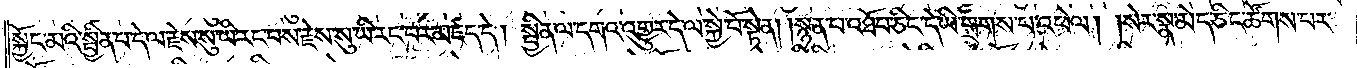སྐྱོང་མའི་སྦྱིན་པ་དེ་ལ་རྗེས་སུ་ཡི་རང་བས་རྗེས་སུ་ཡི་རང་བར་མཛད་དེ། སྦྱིན་ལ་དགའ་འགྱུར་དེ་ལ་སྐྱེ་བོ་སྟེན། །སྙན་པ་འཐོབ་ཅིང་དེ་ཡི་གྲགས་པ་འཕེལ། །སེར་སྣ་མེད་ཅིང་ཚོགས་པར་
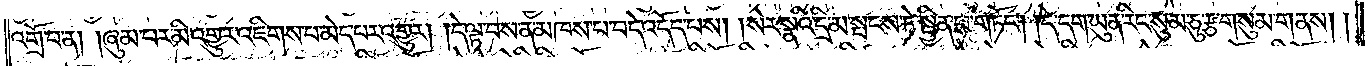འགྲོ་བ་ན། །ཞུམ་པར་མི་འགྱུར་འཇིགས་པ་མེད་པར་འགྱུར། །དེ་ལྟ་བས་ན་མཁས་པ་བདེ་འདོད་པས། །སེར་སྣའི་དྲི་མ་སྤངས་ཏེ་སྦྱིན་པ་གཏོང༌། །དེ་དག་ཡུན་རིང་སུམ་ཅུ་རྩ་གསུམ་གནས། །
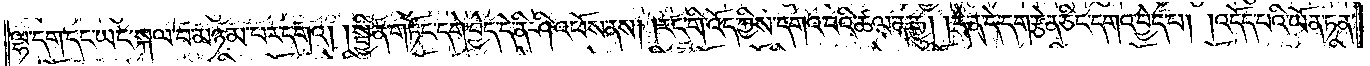ལྷ་དག་དང་ཡང་སྐལ་བ་མཉམ་པར་དགའ། །སྦྱིན་གཏོང་དགེ་བྱེད་དེ་ནི་ཤི་འཕོས་ནས། །རང་གི་འོད་ཀྱིས་དགའ་བའི་ཚལ་ན་རྒྱུ། །དེ་ན་དེ་དག་རྩེན་ཅིང་དགའ་བྱེད་པ། །འདོད་པའི་ཡོན་ཏན་
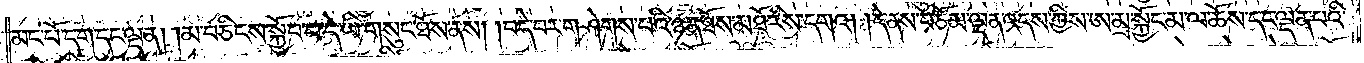མང་པོ་དག་དང་ལྡན། །མ་བཅིངས་སྐྱོབ་པ་དེ་ཡི་གསུང་ཐོས་ནས། །བདེ་བར་གཤེགས་པའི་ཉན་ཐོས་མཐོ་རིས་དགའ། །དེ་ནས་བཅོམ་ལྡན་འདས་ཀྱིས་ཨ་མྲ་སྐྱོང་མ་ལ་ཆོས་དང་ལྡན་པའི་
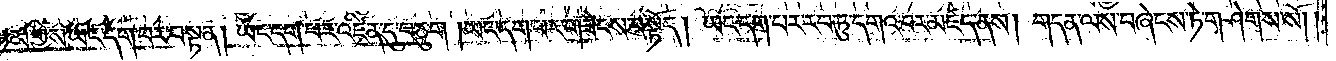གཏམ་གྱིས་ཡང་དག་པར་བསྟན། ཡང་དག་པར་འཛིན་དུ་བཅུག །ཡང་དག་པར་གཟེངས་བསྟོད། ཡང་དག་པར་རབ་ཏུ་དགའ་བར་མཛད་ནས། གདན་ལས་བཞེངས་ཏེ་གཤེགས་སོ། །
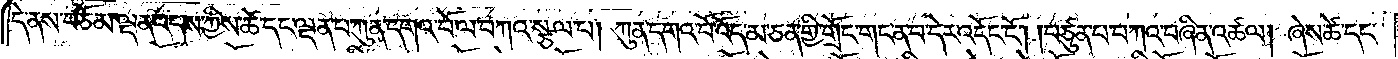དེ་ནས་བཅོམ་ལྡན་འདས་ཀྱིས་ཚེ་དང་ལྡན་པ་ཀུན་དགའ་བོ་ལ་བཀའ་སྩལ་པ། ཀུན་དགའ་བོ་འོད་མ་ཅན་གྱི་གྲོང་གང་ན་བ་དེར་འདོང་ངོ༌། །བཙུན་པ་བཀའ་བཞིན་འཚལ། ཞེས་ཚེ་དང་
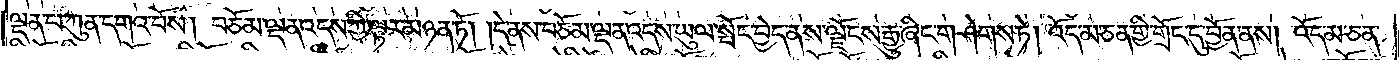ལྡན་པ་ཀུན་དགའ་བོས། བཅོམ་ལྡན་འདས་ཀྱི་ལྟར་མཉན་ཏོ། །དེ་ནས་བཅོམ་ལྡན་འདས་ཡུལ་སྤོང་བྱེད་ནས་ལྗོངས་རྒྱུ་ཞིང་གཤེགས་ཏེ། འོད་མ་ཅན་གྱི་གྲོང་དུ་བྱོན་ནས། འོད་མ་ཅན་
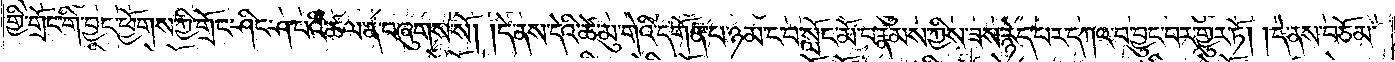གྱི་གྲོང་གི་བྱང་ཕྱོགས་ཀྱི་གྲོང་ཤིང་ཤ་པའི་ཚལ་ན་བཞུགས་སོ། །དེ་ནས་དེའི་ཚེ་མུ་གེའི་དགོན་པ་ཉམ་ང་བ་སློང་མོ་བ་རྣམས་ཀྱིས་ཟས་རྙེད་པར་དཀའ་བ་བྱུང་བར་གྱུར་ཏོ། །དེ་ནས་བཅོམ་
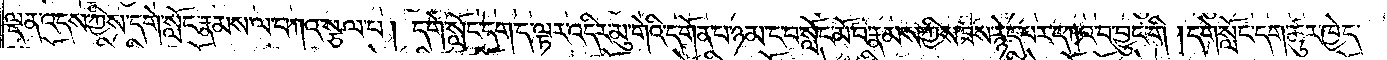ལྡན་འདས་ཀྱིས་དགེ་སློང་རྣམས་ལ་བཀའ་སྩལ་པ། དགེ་སློང་དག་ད་ལྟར་འདིར་མུ་གེའི་དགོན་པ་ཉམ་ང་བ་སློང་མོ་བ་རྣམས་ཀྱིས་ཟས་རྙེད་པར་དཀའ་བ་བྱུང་གི། །དགེ་སློང་དག་ཚུར་ཁྱེད་
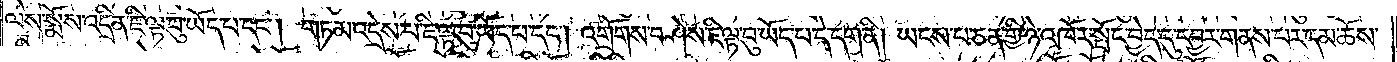ལས་སྨོས་འདྲིན་ཇི་ལྟ་བུ་ཡོད་པ་དང༌། གཏམ་འདྲེས་པ་ཇི་ལྟ་བུ་ཡོད་པ་དང༌། འགྲོགས་བཤེས་ཇི་ལྟ་བུ་ཡོད་པ་དེ་དག་ནི། ཡངས་པ་ཅན་གྱི་ཉེ་འཁོར་སྤོང་བྱེད་དུ་དབྱར་གནས་པར་དམ་ཆོས་
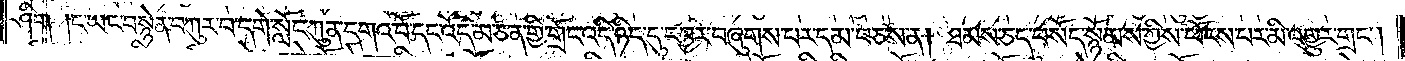ཤིག །ང་ཡང་བསྙེན་བཀུར་བ་དགེ་སློང་ཀུན་དགའ་བོ་དང་འོད་མ་ཅན་གྱི་གྲོང་འདི་ཉིད་དུ་དབྱར་བཞུགས་པར་དམ་བཅས་ན། ཐམས་ཅད་བསོད་སྙོམས་ཀྱིས་ཕོངས་པར་མི་འགྱུར་གྲང༌།
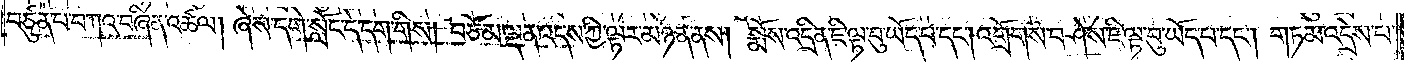བཙུན་པ་བཀའ་བཞིན་འཚལ། ཞེས་དགེ་སློང་དེ་དག་གིས། བཅོམ་ལྡན་འདས་ཀྱི་ལྟར་མཉན་ནས། སྨོས་འདྲིན་ཇི་ལྟ་བུ་ཡོད་པ་དང༌། འགྲོགས་ཤེས་ཇི་ལྟ་བུ་ཡོད་པ་དང༌། གཏམ་འདྲེས་པ་
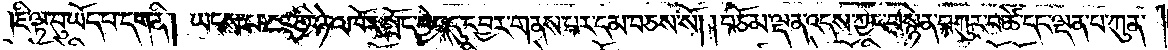ཇི་ལྟ་བུ་ཡོད་པ་དག་ནི། ཡངས་པ་ཅན་གྱི་ཉེ་འཁོར་སྤོང་བྱེད་དུ་དབྱར་གནས་པར་དམ་བཅས་སོ། །བཅོམ་ལྡན་འདས་ཀྱང་བསྙེན་བཀུར་བ་ཚེ་དང་ལྡན་པ་ཀུན་
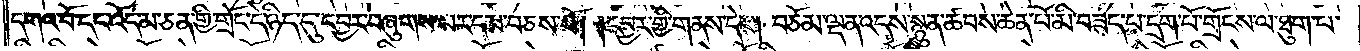དགའ་བོ་དང་འོད་མ་ཅན་གྱི་གྲོང་དེ་ཉིད་དུ་དབྱར་བཞུགས་པར་དམ་བཅས་སོ། །དབྱར་གྱི་གནས་དེར། བཅོམ་ལྡན་འདས་སྙུན་ཚབས་ཆེན་པོ་མི་བཟད་པ་དྲག་པོ་གྲོངས་ལ་ཐུག་པ་
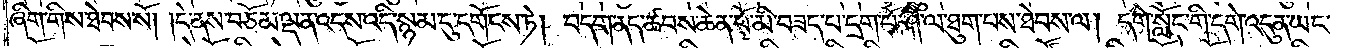ཞིག་གིས་ཐེབས་སོ། །དེ་ནས་བཅོམ་ལྡན་འདས་འདི་སྙམ་དུ་དགོངས་ཏེ། བདག་ནད་ཚབས་ཆེན་པོ་མི་བཟད་པ་དྲག་པོ་ཤི་ལ་ཐུག་པས་ཐེབས་ལ། དགེ་སློང་གི་དགེ་འདུན་ཡང་
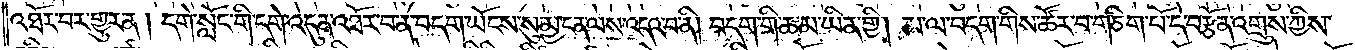འཐོར་བར་གྱུར་ན། དགེ་སློང་གི་དགེ་འདུན་འཐོར་བ་ན་བདག་ཡོངས་སུ་མྱ་ངན་ལས་འདའ་བ་ནི། བདག་གི་ཆ་མ་ཡིན་གྱི། མ་ལ་བདག་གིས་ཚོར་བ་གཅིག་པོ་དེ་བརྩོན་འགྲུས་ཀྱིས་
